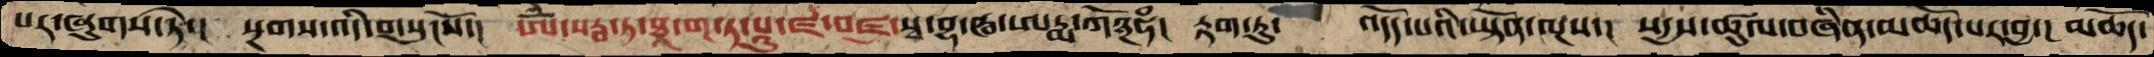པར་བཞུགས་ཏེ་།  སྔགས་འདི་གསུངསོ་།  ཨོཾ་སརྦ་ག་ཐཱ་ག་ཏ་པཱུ་ཛ་བཛྲ་སྭ་བྷ་ཝ་ཨཏྨ་ཀོ྅ཧཾ། རྟག་ཏུ་    འདོད་པའི་ཡྟོན་ལྔས་།  སདྱས་ཚུལ་བཞིན་མཆོད་་པར་བྱ་།  མཆོད་
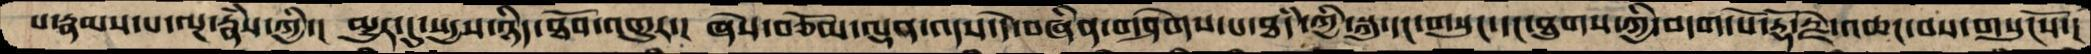པ་རྣམས་པ་ལྔ་རྣཾས་ཀྱི་།  མྱུར་དུ་སདྱས་ཉིད་ཐོབ་འགྱུར་།  ཞེས་བཅོམ་ལྡན་འདས་དེ་བཞིན་གཤེགས་པ་ཐཾད་ཀྱི་སྐུ་དང་གསུང་དང་ཐུགས་ཀྱིི་བདག་པོ་རྡོ་རྗེ་འཆང་བས་གསུངསོ་།
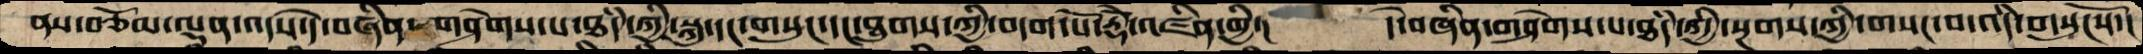ནས་བཅོམ་ལྡན་འདས་དེ་བཞིན་གཤེགས་པ་ཐཾད་ཀྱི་སྐུ་དང་གསུང་དང་ཐུགས་ཀྱི་བདག་པོ་རྡོེ་འཛིན་གྱི་།  དེ་བཞིན་གཤེགས་པ་ཐཾད་ཀྱི་སྔགས་ཀྱི་གསང་བ་འདི་གསུངསོ་།
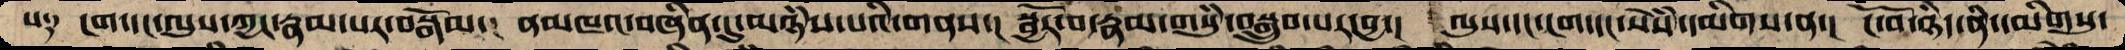པ༑   ངག་དང་ལུས་ཀྱང་རྣམ་པར་བསྒོམ་།  ནམཁའ་བཞིན་དུ་མཉཾས་པའི་གནས་།  སྦྱོར་བ་རྣམ་གསུཾ་བསྒྲུབ་པར་བྱ་།  ལུས་དང་ངག་དང་སེཾས་དམིགས་ན་།  ངོ་བོ་ཉིད་ནི་དམིགསུ་
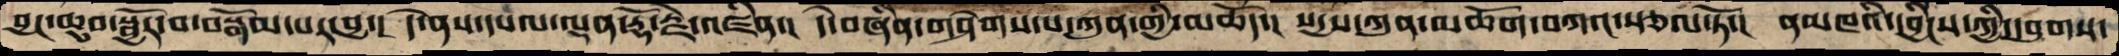བྱང་ཆུབ་སྦྱོར་བ་བསྒོམ་པར་བྱ་།  དེ་ནས་དཔལ་ལྡན་རྡོ་རྗེ་འཛིན་།  དེ་བཞིན་གཤེགས་པ་ཀུན་གྱི་མཆོད་།  སདྱས་ཀུན་མཆོག་བཀའ་སྩལ་ཏོ་།  ནམཁའི་དབྱིངས་ཀྱི་དབུགས་
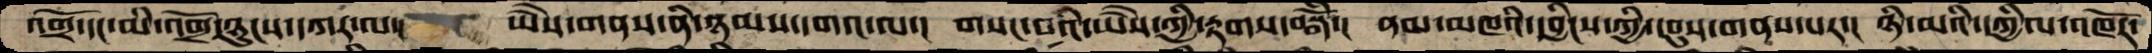འགྲོ་དང་མི་འགྲོ་ཉུངས་དཀར་ལ་།  ཡཻས་གནས་ནི་ཉམས་དགའ་ལ་།  གསང་བའི་ཡཻས་ཀྱི་རྟགས་བསྒོཾ་།  ནམ་མཁའི་དབྱིངས་ཀྱི་དབུས་གནས་པར་།  ཉི་མའི་དཀྱིལ་འཁོར་
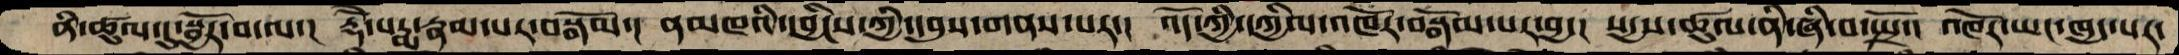ནི་ཚུལ་དུ་སྦྱོར་བ་ལ་།  རྡོེ་པདྨ་རྣམ་པར་བསྒོམ་།  ནམཁའི་དབྱིངས་ཀྱི་དབུས་གནས་པར་།  འདོ་ཀྱི་དཀྱིལ་འཁོར་བསྒོམ་པར་བྱ་།  སདྱས་ཚུལ་ནི་ཞི་བ་སྤྲོ་།  འཁོར་ཡང་ཁྱད་པར་
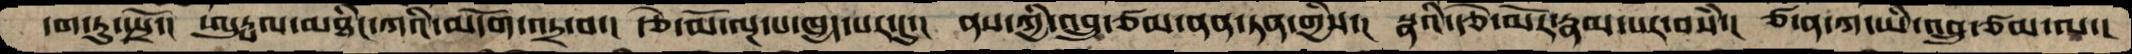དག་ཏུ་སྤྲོ་།  ཨུཏྤལ་མཐིང་ཀའི་མདོག་འདྲ་བ་།  རྩེ་མོ་ལྔ་པ་ཁྱད་པར་དུ་།  ནསཀྱི་འབྲུ་ཙམ་ནན་ཏན་གྱིས་།  སྣའི་རྩེ་མོར་རྣམ་པར་བསཾ་།  ཙ་ན་ཀ་ཡི་འབྲུ་ཙམ་ལ་།
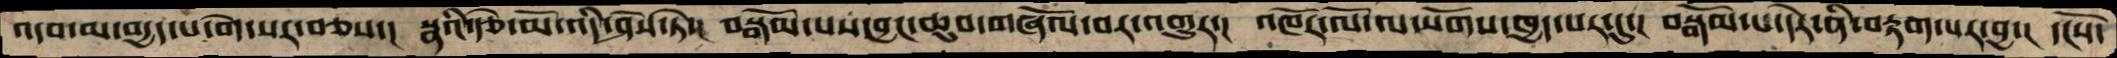འདབ་མ་བརྒྱད་པ་གེ་སར་བཅས་།  སྣའི་རྩེ་མོ་འདི་ཤེས་ཏེ་།  བསྒོམ་པས་བྱང་ཆུབ་གཞོལ་བར་འགྱུར་།  འཁོར་ལོ་ལ་སོགས་ཁྱད་པར་དུ་།  བསྒོམ་པ་དེར་ནི་བརྟག་པར་བྱ་།  དངོས་
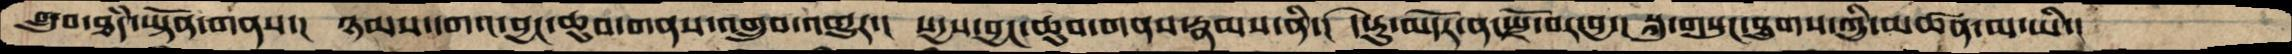གྲུབ་ཐཾད་ཡྟོན་གནས་།  ཉམས་དགའ་བྱང་ཆུབ་གནས་འགྲུབ་འགྱུར་།  སདྱས་བྱང་ཆུབ་གནས་རྣམས་ནི་།།  དེ་རུ་མདོར་ན་སྤྲོ་བར་བྱ་།  སྐུ་གསུང་ཐུགས་ཀྱི་མཚན་མ་ཡི་།
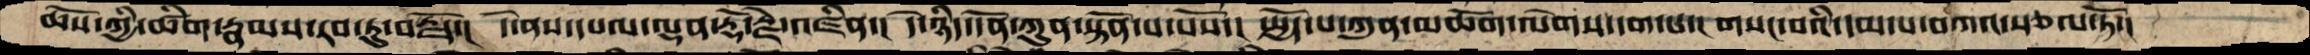ཆོས་ཀྱི་ཚིག་རྣམས་རབ་ཏུ་བརྗོད་།  དེ་ནས་དཔལ་ལྡན་རྡོ་རྗེ་འཛིན་།  དེ་ཉིད་དོན་ཀུན་སྟོན་པ་པོས་།  སྤྱོད་པ་ཀུན་མཆོག་ལེགས་དག་པ་། གསང་བའི་དམ་པ་བཀའ་སྩལ་ཏོ་།
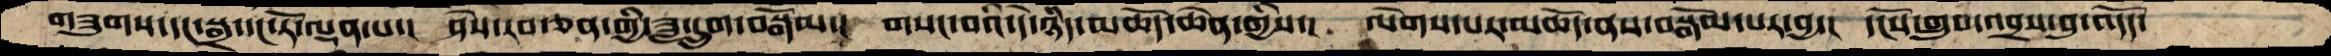གཟུགས་དང་སྒྲ་དང་རོ་ལྡན་པ་།  ཤེས་རབ་ཅན་གྱི་ཟླ་དྲུག་བསྒོམ་།  གསང་བའི་དེ་ཉིད་མཆོད་ཆེན་གྱིས་།  ལེགས་པར་མཆོད་ནས་བསྒོམ་པར་བྱ་།  དངོས་གྲུབ་འབྲས་བུ་འདོད་
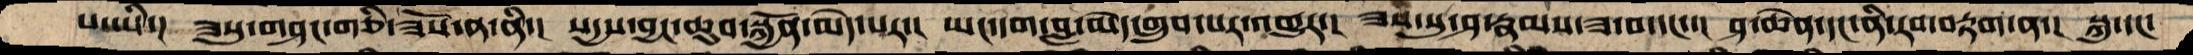པ་ཡི་།  ཟསུ་གཤང་གཅི་ཟོས་ན་ནི་།  སདྱས་བྱང་ཆུབ་སྐྱོན་མེད་པར་།  ཡང་དག་བླ་མེད་གྲུབ་པར་འགྱུར་།  ཟས་སུ་ཤ་རྣམས་ཟ་བ་དང་་།  ཤ་ཆེན་དང་ནི་རབ་བརྟག་ན་།  སྐུ་དང་
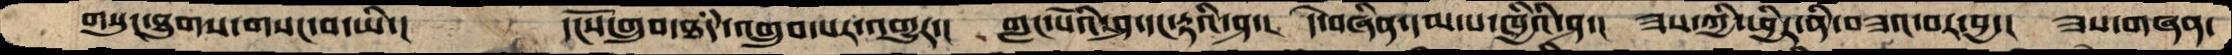གསུང་ཐུགས་གསང་བ་ཡི་།  དངོས་གྲུབ་ཐཾད་འགྲུབ་པར་འགྱུར་།  གླང་པོའི་ཤ་དང་རྟའི་ཤ་།  དེ་བཞིན་དམ་པ་ཁྱིའི་ཤ་།   ཟས་ཀྱི་ཕྱིར་ནི་བཟའ་བར་བྱ་།  ཟས་གཞན་
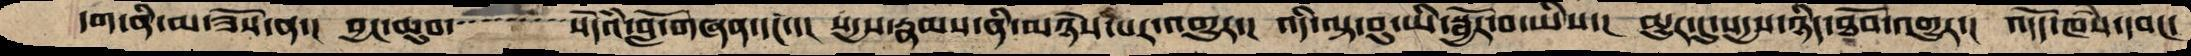དག་ནི་མ་ཟོས་ན་།  བྱང་ཆུབ་་་་་་་་་སེདཾའ་བློ་གཞན་དང་་།  སདྱས་རྣམས་ནི་མཉེས་པར་འགྱུར་།  འདི་ལྟ་བུ་ཡི་སྦྱོར་བ་ཡིས་།  མྱུར་དུ་སདྱས་ཉིད་ཐོབ་འགྱུར་།  འདོད་ཁཾས་དབང་
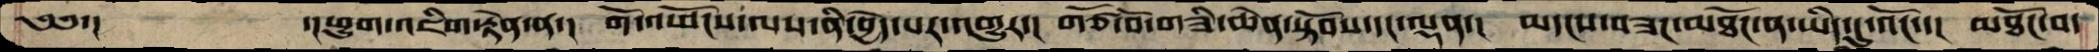༄༅་།      ་།ཕྱུག་འཇིག་རྟེན་ན་།  གོ་འཕོངས་ལས་ནི་བྱེད་པར་འགྱུར་།  གཙོ་བོ་གཟི་ཆེན་སྟོབས་དང་ལྡན་།  མདངས་བཟང་མཐོང་ནས་ཡིད་དུ་འོང་་།  མཐོང་བ་
